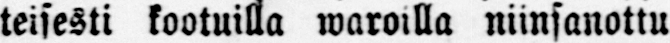teisesti kootuilla waroilla niinsanottu
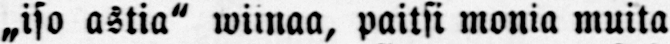„iso astia" wiinaa, paitsi monia muita
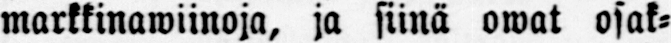markkinawiinoja, ja siinä owat osak-
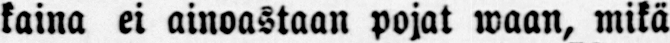kaina ei ainoastaan pojat waan, mikä
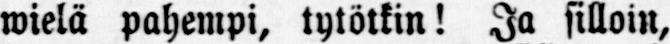wielä pahempi, tytötkin! Ja silloin,
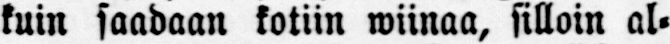kuin saadaan kotiin wiinaa, silloin al-
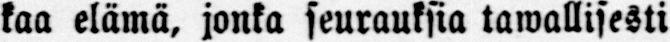kaa elämä, jonka seurauksia tawallisesti
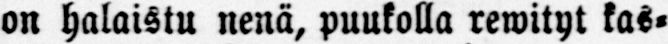on halaistu nenä, puukolla rewityt kas-
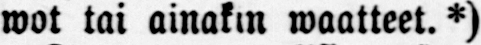wot tai ainakin waatteet.*)
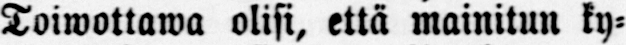Toiwottawa olisi, että mainitun ky-
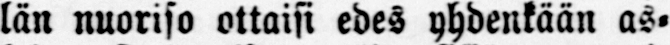län nuoriso ottaisi edes yhdenkään as-
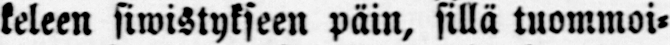keleen siwistykseen päin, sillä tuommoi-
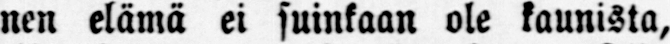nen elämä ei suinkaan ole kaunista,
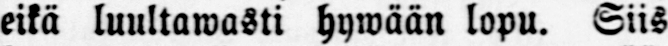eikä luultawasti hywään lopu. Siis
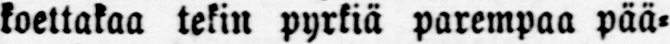koettakaa tekin pyrkiä parempaa pää-
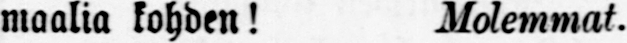maalia kohden! Molemmat.
